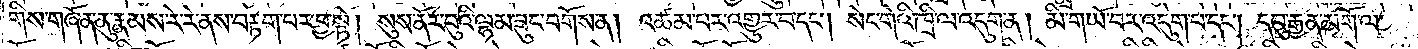གིས་གཞོན་ནུ་རྣམས་རེ་རེ་ནས་བརྟག་པར་བྱ་སྟེ། སུས་ནོར་བུའི་ལྷམ་ཟུང་བགོས་ན། འཚམ་པར་འགྱུར་བ་དང༌། སེང་གེའི་ཁྲི་ལ་འདུག་ན། མི་གཡོ་བར་འདུག་པ་དང༌། དབུ་རྒྱན་མགོ་ལ་
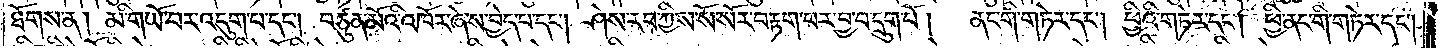ཐོགས་ན། མི་གཡོ་བར་འདུག་པ་དང༌། བཙུན་མོའི་འཁོར་ཞེས་བྱེད་པ་དང༌། ཤེས་རབ་ཀྱིས་སོ་སོར་བརྟག་པར་བྱ་བ་དྲུག་པོ། ནང་གི་གཏེར་དང༌། ཕྱིའི་གཏེར་དང༌། ཕྱི་ནང་གི་གཏེར་དང༌།
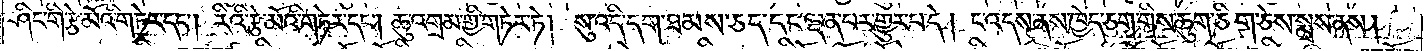ཤིང་གི་རྩེ་མོའི་གཏེར་དང༌། རིའི་རྩེ་མོའི་གཏེར་དང༌། ཆུ་འགྲམ་གྱི་གཏེར་ཏེ། སུ་འདི་དག་ཐམས་ཅད་དང་ལྡན་པར་གྱུར་པ་དེ། ང་འདས་ནས་ཁྱེད་ཅག་གིས་ཆུག་ཅིག་ཅེས་སྨྲས་ནས།
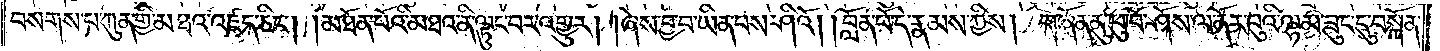བསགས་པ་ཀུན་གྱི་མཐའ་འཛད་ཅིང༌། །མཐོན་པོའི་མཐའ་ནི་ལྟུང་བར་འགྱུར། །ཞེས་བྱ་བ་ཡིན་པས་ཤིའོ། །བློན་པོ་དེ་རྣམས་ཀྱིས། གཞོན་ནུ་ཕུ་བོ་ཤོས་ལ་ནོར་བུའི་ལྷམ་ཟུང་དུ་བསྐོན་
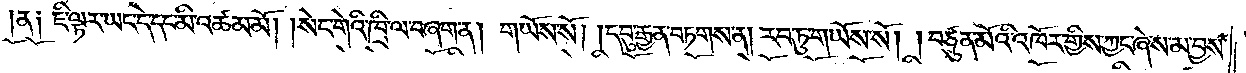ན༑ ཇི་ལྟར་ཡང་དེ་དང་མི་འཚམ་མོ། །སེང་གེའི་ཁྲི་ལ་བཞག་ན། གཡོས་སོ། །དབུ་རྒྱན་བཏགས་ན། རབ་ཏུ་གཡོས་སོ། །བཙུན་མོའི་འཁོར་གྱིས་ཀྱང་ཞེས་མ་བྱས་
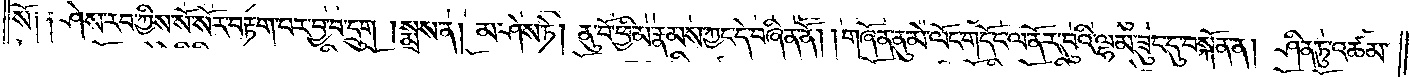སོ༑ ༑ཤེས་རབ་ཀྱིས་སོ་སོར་བརྟག་པར་བྱ་བ་དྲུག །སྨྲས་ན། མ་ཤེས་ཏེ། ནུ་བོ་ཕྱི་མ་རྣམས་ཀྱང་དེ་བཞིན་ནོ། །གཞོན་ནུ་མེ་ལོང་གདོང་ལ་ནོར་བུའི་ལྷམ་ཟུང་དུ་བསྐོན་ན། ཤིན་ཏུ་འཚམ་
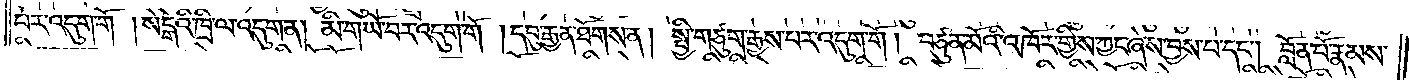པར་འདུག་གོ །སེངྒེའི་ཁྲི་ལ་འདུག་ན། མི་གཡོ་བར་འདུག་གོ །དབུ་རྒྱན་ཐོགས་ན། སྤྱི་གཙུག་རྒྱས་པར་འདུག་གོ །བཙུན་མོའི་འཁོར་གྱིས་ཀྱང་ཞེས་བྱས་པ་དང༌། བློན་པོ་རྣམས་
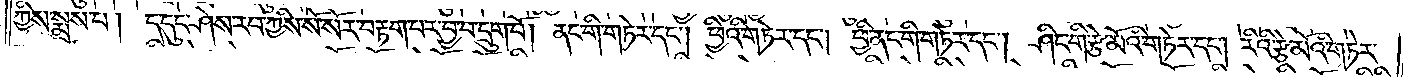ཀྱིས་སྨྲས་པ། ད་དུང་ཤེས་རབ་ཀྱིས་སོ་སོར་བརྟག་པར་བྱ་བ་དྲུག་པོ། ནང་གི་གཏེར་དང༌། ཕྱིའི་གཏེར་དང༌། ཕྱི་ནང་གི་གཏེར་དང༌། ཤིང་གི་རྩེ་མོའི་གཏེར་དང༌། རིའི་རྩེ་མོའི་གཏེར་
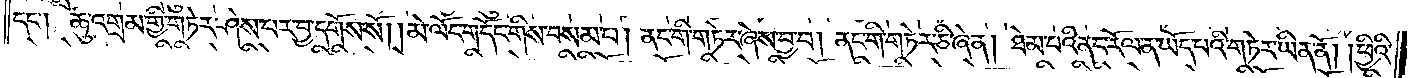དང༌། ཆུ་འགྲམ་གྱི་གཏེར་ཤེས་པར་བྱ་དགོས་སོ། །མེ་ལོང་གདོང་གིས་བསམ་པ། ནང་གི་གཏེར་ཞེས་བྱ་བ། ནང་གི་གཏེར་ཅི་ཞེ་ན། ཐེམ་པའི་ནང་རོལ་ན་ཡོད་པའི་གཏེར་ཡིན་ནོ། །ཕྱིའི་
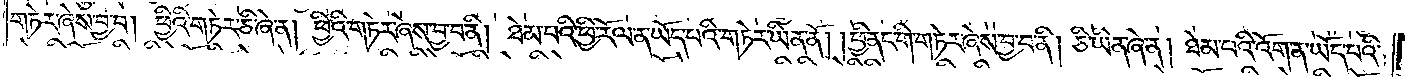གཏེར་ཞེས་བྱ་བ། ཕྱིའི་གཏེར་ཅི་ཞེ་ན། ཕྱིའི་གཏེར་ཞེས་བྱ་བ་ནི། ཐེམ་པའི་ཕྱི་རོལ་ན་ཡོད་པའི་གཏེར་ཡིན་ནོ། །ཕྱི་ནང་གི་གཏེར་ཞེས་བྱ་བ་ནི། ཅི་ཡིན་ཞེ་ན། ཐེམ་པའི་འོག་ན་ཡོད་པའི་
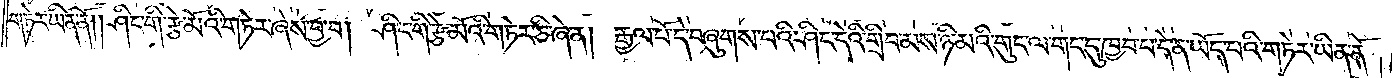གཏེར་ཡིན་ནོ། ཤིང་གི་རྩེ་མོའི་གཏེར་ཞེས་བྱ་བ། ཤིང་གི་རྩེ་མོའི་གཏེར་ཅི་ཞེ་ན། རྒྱལ་པོ་དེ་བཞུགས་པའི་ཤིང་དེའི་གྲིབ་མས་ཉི་མའི་གུང་ལ་གང་དུ་ཁྱབ་པ་དེ་ན་ཡོད་པའི་གཏེར་ཡིན་ནོ། །
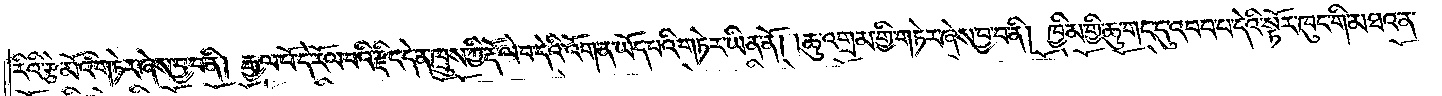རིའི་རྩེ་མོའི་གཏེར་ཞེས་བྱ་བ་ནི། རྒྱལ་པོ་དེ་རོལ་བའི་རྫིང་དེ་ན་ཁྲུས་ཀྱི་རྡོ་ལེབ་དེའི་འོག་ན་ཡོད་པའི་གཏེར་ཡིན་ནོ། །ཆུ་འགྲམ་གྱི་གཏེར་ཞེས་བྱ་བ་ནི། ཁྱིམ་གྱི་ཆུ་གང་དུ་འབབ་པ་དེའི་སྟོར་ཁུང་གི་མཐའ་ན་
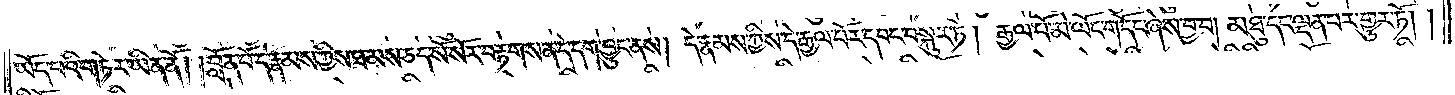ཡོད་པའི་གཏེར་ཡིན་ནོ། །བློན་པོ་དེ་རྣམས་ཀྱིས་ཐམས་ཅད་སོ་སོར་བརྟགས་ན་དེ་དག་བྱུང་ནས། དེ་རྣམས་ཀྱིས་དེ་རྒྱལ་པོར་དབང་བསྐུར་ཏེ། རྒྱལ་པོ་མེ་ལོང་གདོང་ཞེས་བྱ་བ། མཐུ་དང་ལྡན་པར་གྱུར་ཏོ། །
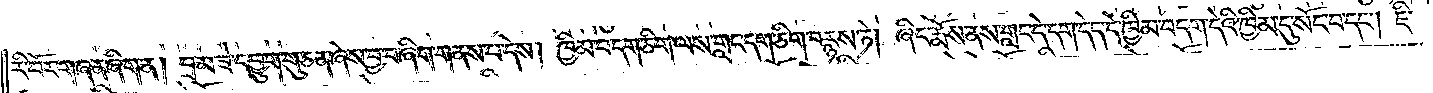རི་བོར་གཞན་ཞིག་ན། བྲམ་ཟེ་དབྱུག་གུ་ཅན་ཞེས་བྱ་བ་ཞིག་གནས་པ་དེས། ཁྱིམ་བདག་ཅིག་ལས་གླང་དག་ཅིག་བརྙས་ཏེ། ཞིང་རྨོས་ནས་གླང་དེ་དག་དེད་དེ་ཁྱིམ་བདག་དེའི་ཁྱིམ་དུ་སོང་བ་དང༌། ཇི་
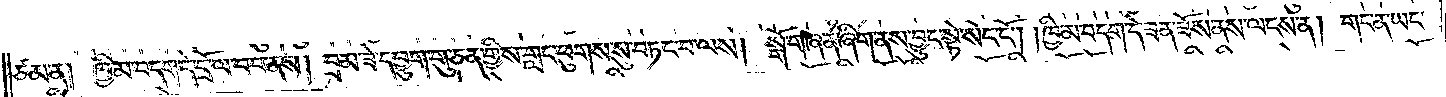ཙམ་ན། ཁྱིམ་བདག་དེ་དྲོ་ལ་བབ་ནས། བྲམ་ཟེ་དབྱུག་གུ་ཅན་གྱིས་གླང་ཕུགས་སུ་བཏང་བ་ལས། སྒོ་གཞན་ཞིག་ནས་བྱུང་སྟེ་སེང་ངོ༌། །ཁྱིམ་བདག་དེ་ཟན་ཟོས་ནས་ལངས་ན། གང་ན་ཡང་
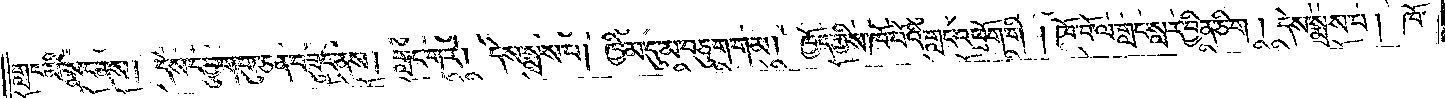གླང་མི་སྣང་ནས། དེས་དབྱུག་གུ་ཅན་བཟུང་ནས། གླང་ག་རེ། དེས་སྨྲས་པ། ཁྱིམ་དུ་མ་བཅུག་གམ། ཁྱོད་ཀྱིས་ཁོ་བོའི་གླང་འཕྲོག་གི། ཁོ་བོ་ལ་གླང་སླར་བྱིན་ཅིག །དེས་སྨྲས་པ། ཁོ་
